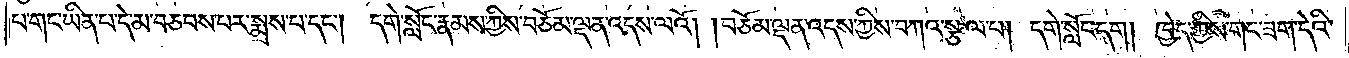པ་གང་ཡིན་པ་དེ་མ་བཅབས་པར་སྨྲས་པ་དང༌། དགེ་སློང་རྣམས་ཀྱིས་བཅོམ་ལྡན་འདས་ལའོ། །བཅོམ་ལྡན་འདས་ཀྱིས་བཀའ་སྩལ་པ། དགེ་སློང་དག། ཁྱེད་ཀྱིས་གང་ཟག་དེའི་
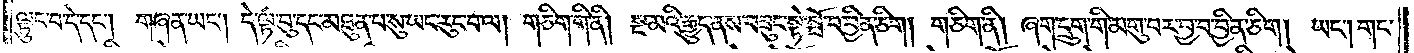ལྟུང་བ་དེ་དང༌། གཞན་ཡང༌། དེ་ལྟ་བུ་དང་མཐུན་པ་སུ་ཡང་རུང་བ་ལ། གཅིག་གི་ནི། སྔ་མའི་རྒྱུད་ནས་བཟུང་སྟེ་སྤོ་བ་བྱིན་ཅིག །གཅིག་ནི། ཞག་དྲུག་གི་མགུ་བར་བྱ་བ་བྱིན་ཅིག། ཡང༌། གང་
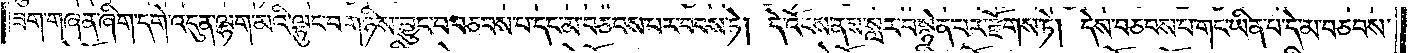ཟག་གཞན་ཞིག་དགེ་འདུན་ལྷག་མའི་ལྟུང་བ་གཉིས་བྱུང་བ་བཅབས་པ་དང་མ་བཅབས་པར་བབས་ཏེ། དེ་འོངས་ནས་སླར་བསྙེན་པར་རྫོགས་ཏེ། དེས་བཅབས་པ་གང་ཡིན་པ་དེ་མ་བཅབས་
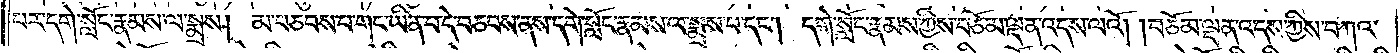པར་དགེ་སློང་རྣམས་ལ་སྨྲས། མ་བཅབས་པ་གང་ཡིན་པ་དེ་བཅབས་ནས་དགེ་སློང་རྣམས་ལ་སྨྲས་པ་དང༌། དགེ་སློང་རྣམས་ཀྱིས་བཅོམ་ལྡན་འདས་ལའོ། །བཅོམ་ལྡན་འདས་ཀྱིས་བཀའ་
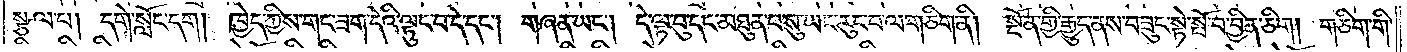སྩལ་པ། དགེ་སློང་དག། ཁྱེད་ཀྱིས་གང་ཟག་དེའི་ལྟུང་བ་དེ་དང༌། གཞན་ཡང༌། དེ་ལྟ་བུ་དང་མཐུན་པ་སུ་ཡང་རུང་བ་ལ་གཅིག་ནི། སྔོན་གྱི་རྒྱུད་ནས་བཟུང་སྟེ་སྤོ་བ་བྱིན་ཅིག། གཅིག་གི་
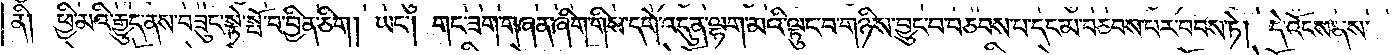ནི། ཕྱི་མའི་རྒྱུད་ནས་བཟུང་སྟེ་སྤོ་བ་བྱིན་ཅིག། ཡང༌། གང་ཟག་གཞན་ཞིག་གིས་དགེ་འདུན་ལྷག་མའི་ལྟུང་བ་གཉིས་བྱུང་བ་བཅབས་པ་དང་མ་བཅབས་པར་བབས་ཏེ། དེ་འོངས་ནས་
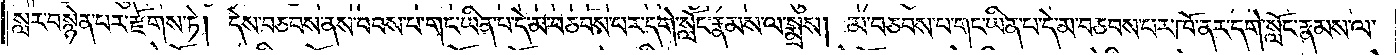སླར་བསྙེན་པར་རྫོགས་ཏེ། དེས་བཅབས་ནས་བབས་པ་གང་ཡིན་པ་དེ་མ་བཅབས་པར་དགེ་སློང་རྣམས་ལ་སྨྲས། མ་བཅབས་པ་གང་ཡིན་པ་དེ་མ་བཅབས་པར་ཁོ་ནར་དགེ་སློང་རྣམས་ལ་
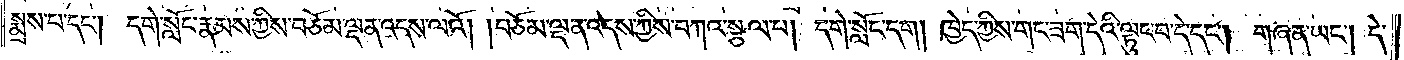སྨྲས་པ་དང༌། དགེ་སློང་རྣམས་ཀྱིས་བཅོམ་ལྡན་འདས་ལའོ། །བཅོམ་ལྡན་འདས་ཀྱིས་བཀའ་སྩལ་པ། དགེ་སློང་དག། ཁྱེད་ཀྱིས་གང་ཟག་དེའི་ལྟུང་བ་དེ་དང༌། གཞན་ཡང༌། དེ་
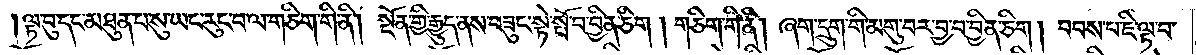ལྟ་བུ་དང་མཐུན་པ་སུ་ཡང་རུང་བ་ལ་གཅིག་གི་ནི། སྔོན་གྱི་རྒྱུད་ནས་བཟུང་སྟེ་སྤོ་བ་བྱིན་ཅིག །གཅིག་གི་ནི། ཞག་དྲུག་གི་མགུ་བར་བྱ་བ་བྱིན་ཅིག །བབས་པ་ཇི་ལྟ་བ་
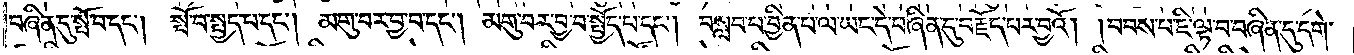བཞིན་དུ་སྤོ་བ་དང༌། སྤོ་བ་སྤྱད་པ་དང༌། མགུ་བར་བྱ་བ་དང༌། མགུ་བར་བྱ་བ་སྤྱོད་པ་དང༌། བསླབ་པ་བྱིན་པ་ལ་ཡང་དེ་བཞིན་དུ་བརྗོད་པར་བྱའོ། །བབས་པ་ཇི་ལྟ་བ་བཞིན་དུ་དགེ་
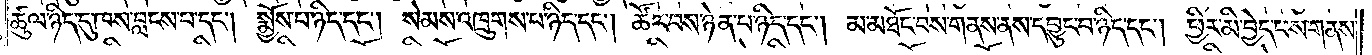ཚུལ་ཉིད་དུ་ཁས་བླངས་པ་དང༌། སྨྱོས་པ་ཉིད་དང༌། སེམས་འཁྲུགས་པ་ཉིད་དང༌། ཚོར་བས་ཉེན་པ་ཉིད་དང༌། མ་མཐོང་བས་གནས་ནས་དབྱུང་བ་ཉིད་དང༌། ཕྱིར་མི་བྱེད་པས་གནས་
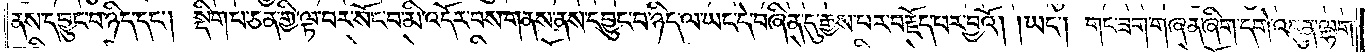ནས་དབྱུང་བ་ཉིད་དང༌། སྡིག་པ་ཅན་གྱི་ལྟ་བར་སོང་བ་མི་འདོར་བས་གནས་ནས་དབྱུང་བ་ཉིད་ལ་ཡང་དེ་བཞིན་དུ་རྒྱས་པར་བརྗོད་པར་བྱའོ། །ཡང༌། གང་ཟག་གཞན་ཞིག་དགེ་འདུན་ལྷག་
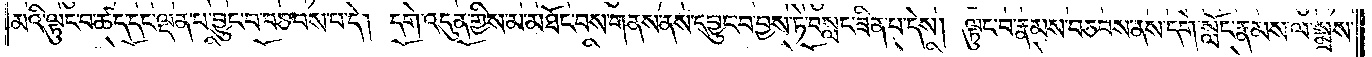མའི་ལྟུང་བ་ཚད་དང་ལྡན་པ་བྱུང་བ་བཅབས་པ་དེ། དགེ་འདུན་གྱིས་མ་མཐོང་བས་གནས་ནས་དབྱུང་བ་བྱས་ཏེ་བསླང་ཟིན་པ་དེས། ལྟུང་བ་རྣམས་བཅབས་ནས་དགེ་སློང་རྣམས་ལ་སྨྲས་
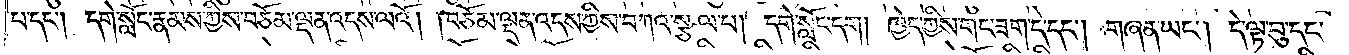པ་དང༌། དགེ་སློང་རྣམས་ཀྱིས་བཅོམ་ལྡན་འདས་ལའོ། །བཅོམ་ལྡན་འདས་ཀྱིས་བཀའ་སྩལ་པ། དགེ་སློང་དག། ཁྱེད་ཀྱིས་གང་ཟག་དེ་དང༌། གཞན་ཡང༌། དེ་ལྟ་བུ་དང་
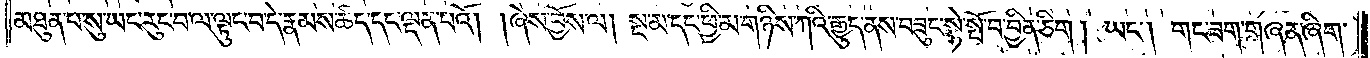མཐུན་པ་སུ་ཡང་རུང་བ་ལ་ལྟུང་བ་དེ་རྣམས་ཚད་དང་ལྡན་པའོ། །ཞེས་བྱོས་ལ། སྔ་མ་དང་ཕྱི་མ་གཉིས་ཀའི་རྒྱུད་ནས་བཟུང་སྟེ་སྤོ་བ་བྱིན་ཅིག། ཡང༌། གང་ཟག་གཞན་ཞིག་
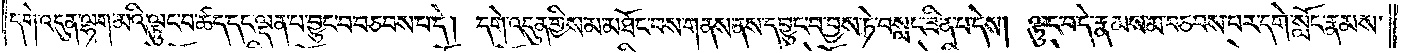དགེ་འདུན་ལྷག་མའི་ལྟུང་བ་ཚད་དང་ལྡན་པ་བྱུང་བ་བཅབས་པ་དེ། དགེ་འདུན་གྱིས་མ་མཐོང་བས་གནས་ནས་དབྱུང་བ་བྱས་ཏེ་བསླང་ཟིན་པ་དེས། ལྟུང་བ་དེ་རྣམས་མ་བཅབས་པར་དགེ་སློང་རྣམས་
